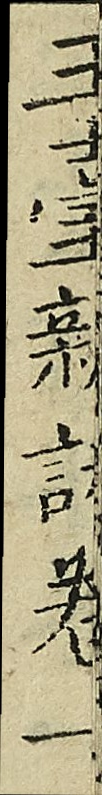玉臺新詠卷一
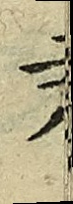二十八
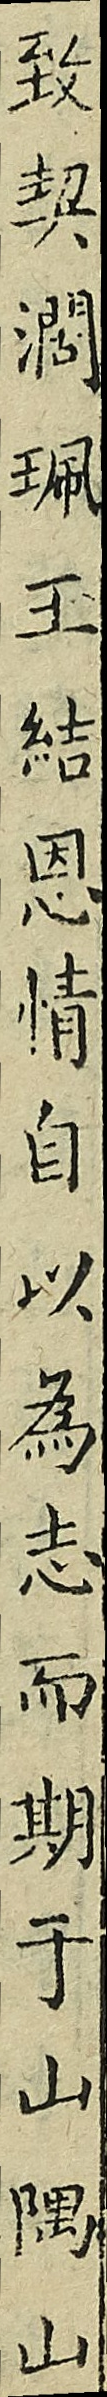緻契濶珮王結恩情自以為志期子山隅山
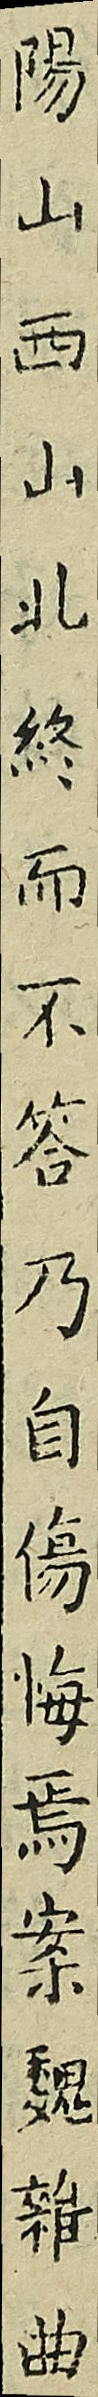陽山西山北終而不答乃自傷悔焉案魏雜曲
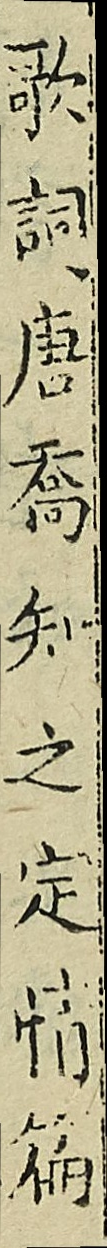歌詞唐喬知之定情篇
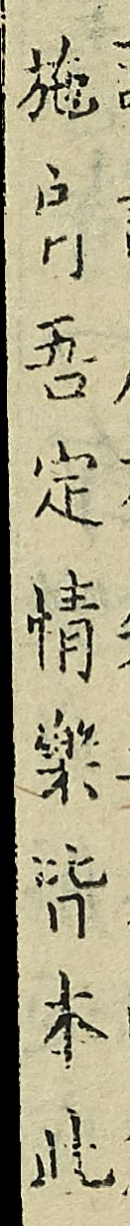施肩吾定情樂𦙊本此
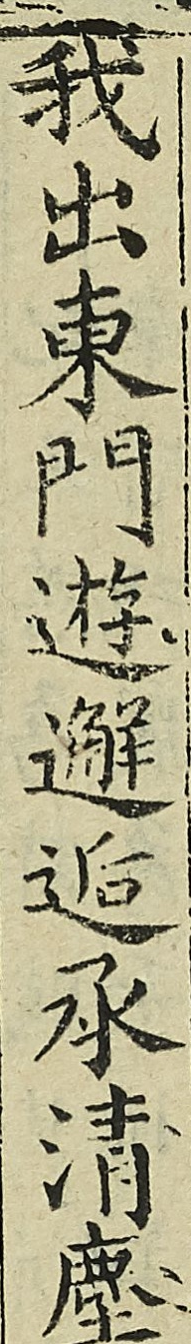我出東門遊邂逅承清塵
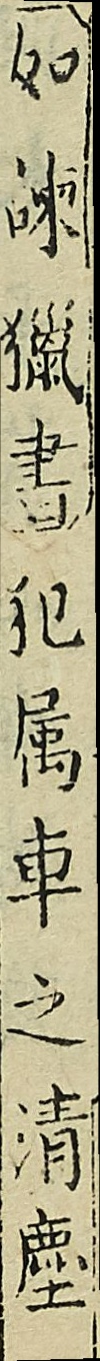（如諫獵書）犯屬車之清塵
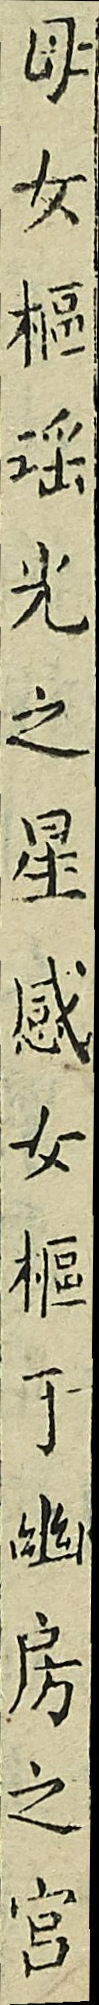母女樞瑤光之星感女樞于幽房之宮
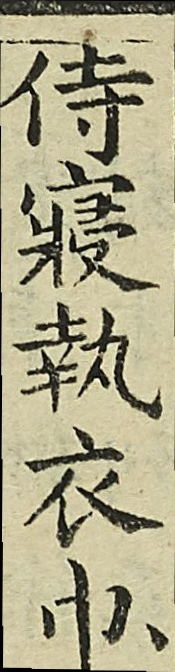侍寢執衣巾
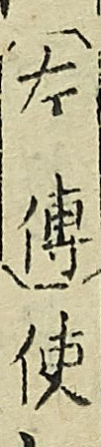（左傳）使
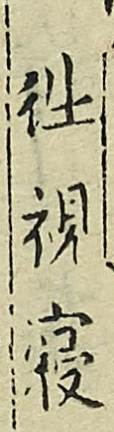往視寢
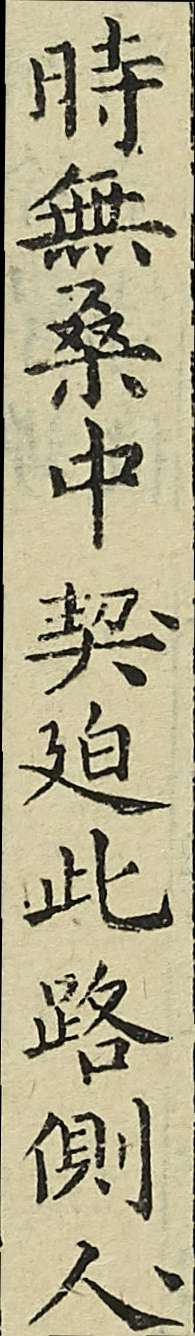時無桑中契迫此路側人
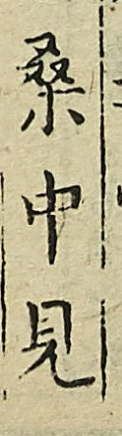桑中見
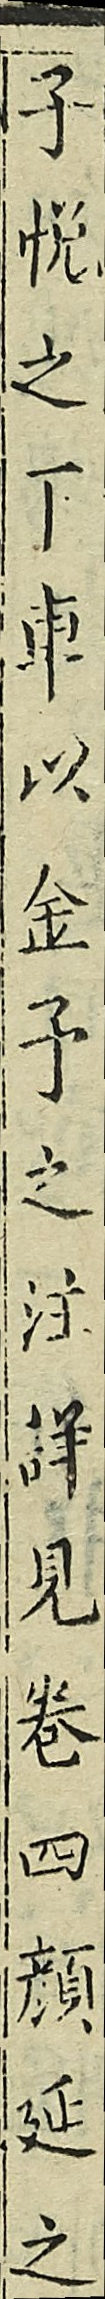子悅之下車以金子之注詳見卷四顏延之
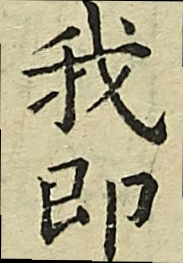我即
